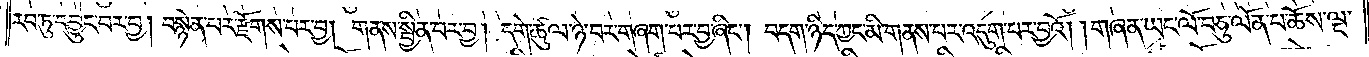རབ་ཏུ་དབྱུང་བར་བྱ། བསྙེན་པར་རྫོགས་པར་བྱ། གནས་སྦྱིན་པར་བྱ། དགེ་ཚུལ་ཉེ་བར་གཞག་པར་བྱ་ཞིང༌། བདག་ཉིད་ཀྱང་མི་གནས་པར་འདུག་པར་བྱའོ། །གཞན་ཡང་ལོ་བཅུ་ལོན་པ་ཆོས་ལྔ་
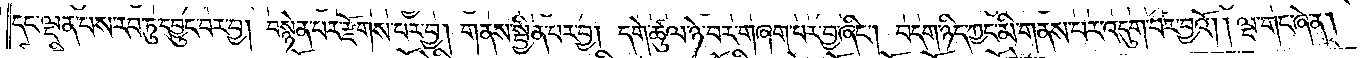དང་ལྡན་པས་རབ་ཏུ་དབྱུང་བར་བྱ། བསྙེན་པར་རྫོགས་པར་བྱ། གནས་སྦྱིན་པར་བྱ། དགེ་ཚུལ་ཉེ་བར་གཞག་པར་བྱ་ཞིང༌། བདག་ཉིད་ཀྱང་མི་གནས་པར་འདུག་པར་བྱའོ། །ལྔ་གང་ཞེ་ན།
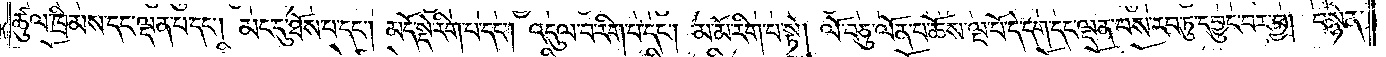ཚུལ་ཁྲིམས་དང་ལྡན་པ་དང༌། མང་དུ་ཐོས་པ་དང༌། མདོ་སྡེ་རིག་པ་དང༌། འདུལ་བ་རིག་པ་དང༌། མ་མོ་རིག་པ་སྟེ། ལོ་བཅུ་ལོན་པ་ཆོས་ལྔ་པོ་དེ་དག་དང་ལྡན་པས་རབ་ཏུ་དབྱུང་བར་བྱ། བསྙེན་
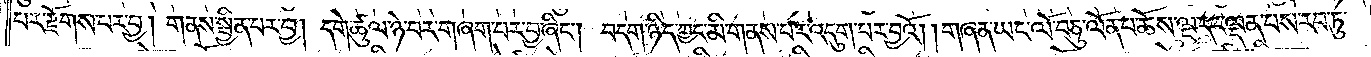པར་རྫོགས་པར་བྱ། གནས་སྦྱིན་པར་བྱ། དགེ་ཚུལ་ཉེ་བར་གཞག་པར་བྱ་ཞིང༌། བདག་ཉིད་ཀྱང་མི་གནས་པར་འདུག་པར་བྱའོ། །གཞན་ཡང་ལོ་བཅུ་ལོན་པ་ཆོས་ལྔ་དང་ལྡན་པས་རབ་ཏུ་
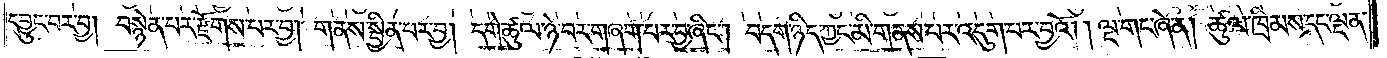དབྱུང་བར་བྱ། བསྙེན་པར་རྫོགས་པར་བྱ། གནས་སྦྱིན་པར་བྱ། དགེ་ཚུལ་ཉེ་བར་གཞག་བར་བྱ་ཞིང༌། བདག་ཉིད་ཀྱང་མི་གནས་པར་འདུག་བར་བྱའོ། །ལྔ་གང་ཞེ་ན། ཚུལ་ཁྲིམས་དང་ལྡན་
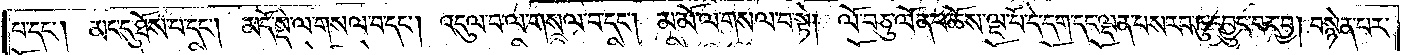པ་དང༌། མང་དུ་ཐོས་པ་དང༌། མདོ་སྡེ་ལ་གསལ་བ་དང༌། འདུལ་བ་ལ་གསལ་བ་དང༌། མ་མོ་ལ་གསལ་བ་སྟེ། ལོ་བཅུ་ལོན་པ་ཆོས་ལྔ་པོ་དེ་དག་དང་ལྡན་པས་རབ་ཏུ་དབྱུང་བར་བྱ། བསྙེན་པར་
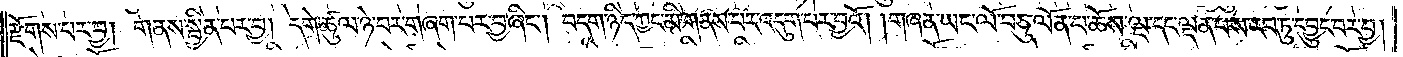རྫོགས་པར་བྱ། གནས་སྦྱིན་པར་བྱ། དགེ་ཚུལ་ཉེ་བར་གཞག་པར་བྱ་ཞིང༌། བདག་ཉིད་ཀྱང་མི་གནས་པར་འདུག་པར་བྱའོ། །གཞན་ཡང་ལོ་བཅུ་ལོན་པ་ཆོས་ལྔ་དང་ལྡན་པས་རབ་ཏུ་དབྱུང་བར་བྱ།
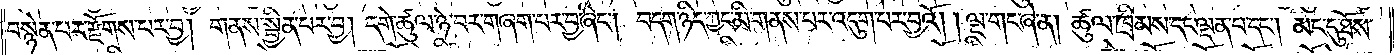བསྙེན་པར་རྫོགས་པར་བྱ། གནས་སྦྱིན་པར་བྱ། དགེ་ཚུལ་ཉེ་བར་གཞག་པར་བྱ་ཞིང༌། བདག་ཉིད་ཀྱང་མི་གནས་པར་འདུག་པར་བྱའོ། །ལྔ་གང་ཞེ་ན། ཚུལ་ཁྲིམས་དང་ལྡན་པ་དང༌། མང་དུ་ཐོས་
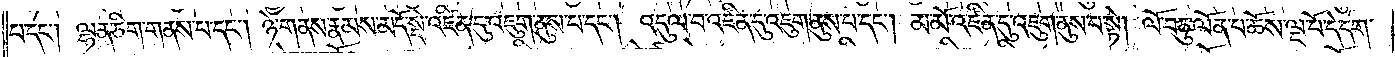པ་དང༌། ལྷན་ཅིག་གནས་པ་དང༌། ཉེ་གནས་རྣམས་མདོ་སྡེ་འཛིན་དུ་འཇུག་ནུས་པ་དང༌། འདུལ་བ་འཛིན་དུ་འཇུག་ནུས་པ་དང༌། མ་མོ་འཛིན་དུ་འཇུག་ནུས་པ་སྟེ། ལོ་བཅུ་ལོན་པ་ཆོས་ལྔ་པོ་དེ་དག་
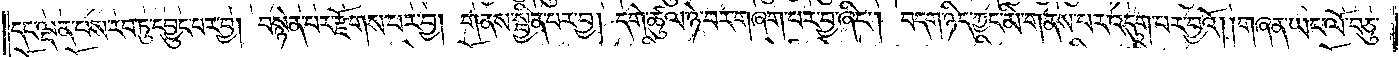དང་ལྡན་པས་རབ་ཏུ་དབྱུང་པར་བྱ། བསྙེན་པར་རྫོགས་པར་བྱ། གནས་སྦྱིན་པར་བྱ། དགེ་ཚུལ་ཉེ་བར་གཞག་པར་བྱ་ཞིང༌། བདག་ཉིད་ཀྱང་མི་གནས་པར་འདུག་པར་བྱའོ། །གཞན་ཡང་ལོ་བཅུ་
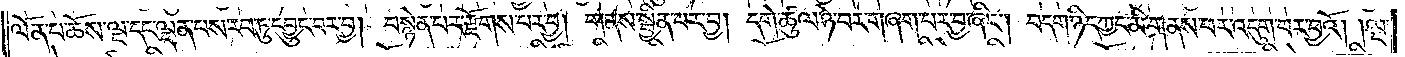ལོན་པ་ཆོས་ལྔ་དང་ལྡན་པས་རབ་ཏུ་དབྱུང་བར་བྱ། བསྙེན་པར་རྫོགས་པར་བྱ། གནས་སྦྱིན་པར་བྱ། དགེ་ཚུལ་ཉེ་བར་གཞག་པར་བྱ་ཞིང༌། བདག་ཉིད་ཀྱང་མི་གནས་པར་འདུག་པར་བྱའོ། །ལྔ་
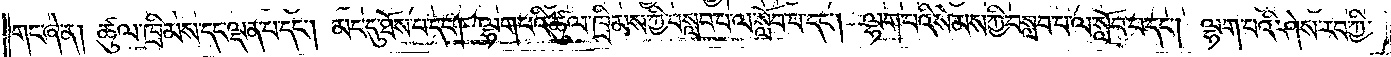གང་ཞེ་ན། ཚུལ་ཁྲིམས་དང་ལྡན་པ་དང༌། མང་དུ་ཐོས་པ་དང༌། ལྷག་པའི་ཚུལ་ཁྲིམས་ཀྱི་བསླབ་པ་ལ་སློབ་པ་དང༌། ལྷག་བའི་སེམས་ཀྱི་བསླབ་བ་ལ་སློབ་པ་དང༌། ལྷག་པའི་ཤེས་རབ་ཀྱི་
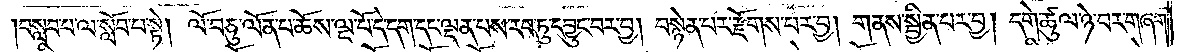བསླབ་པ་ལ་སློབ་པ་སྟེ། ལོ་བཅུ་ལོན་པ་ཆོས་ལྔ་པོ་དེ་དག་དང་ལྡན་པས་རབ་ཏུ་དབྱུང་བར་བྱ། བསྙེན་པར་རྫོགས་པར་བྱ། གནས་སྦྱིན་པར་བྱ། དགེ་ཚུལ་ཉ་བར་གཞག་
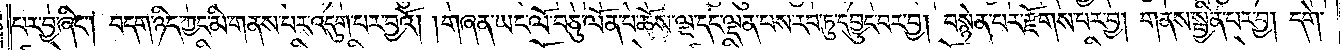པར་བྱ་ཞིང༌། བདག་ཉིད་ཀྱང་མི་གནས་པར་འདུག་པར་བྱའོ། །གཞན་ཡང་ལོ་བཅུ་ལོན་པ་ཆོས་ལྔ་དང་ལྡན་པས་རབ་ཏུ་དབྱུང་བར་བྱ། བསྙེན་པར་རྫོགས་པར་བྱ། གནས་སྦྱིན་པར་བྱ། དགེ་
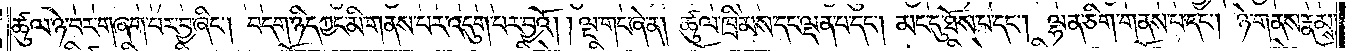ཚུལ་ཉེ་བར་གཞག་པར་བྱ་ཞིང༌། བདག་ཉིད་ཀྱང་མི་གནས་པར་འདུག་པར་བྱའོ། །ལྔ་གང་ཞེ་ན། ཚུལ་ཁྲིམས་དང་ལྡན་པ་དང༌། མང་དུ་ཐོས་པ་དང༌། ལྷན་ཅིག་གནས་པ་དང༌། ཉེ་གནས་རྣམས་
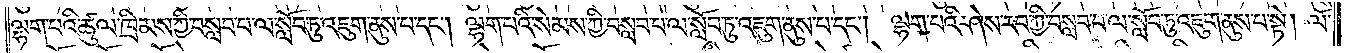ལྷག་པའི་ཚུལ་ཁྲིམས་ཀྱི་བསླབ་པ་ལ་སློབ་ཏུ་འཇུག་ནུས་པ་དང༌། ལྷག་པའི་སེམས་ཀྱི་བསླབ་པ་ལ་སློབ་ཏུ་འཇུག་ནུས་པ་དང༌། ལྷག་པའི་ཤེས་རབ་ཀྱི་བསླབ་པ་ལ་སློབ་ཏུ་འཇུག་ནུས་པ་སྟེ། ལོ་
